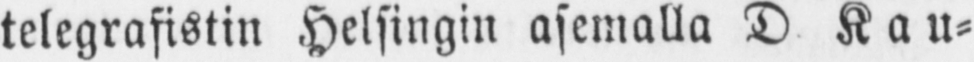telegrafistin Helsingin asemalla D Kau-
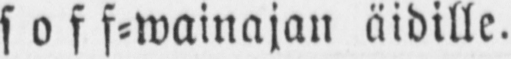soff-wainajan äidille.
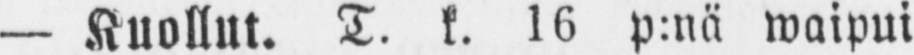— Kuollut. T. k. 16 p:nä waipui
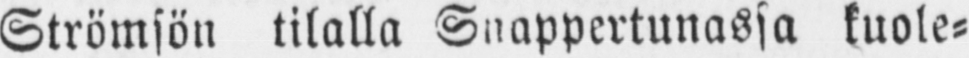Strömsön tilalla Snappertunassa kuole-
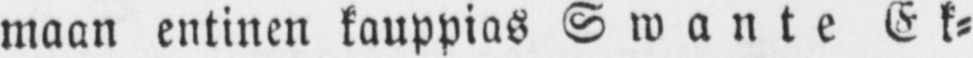maan entinen kauppias Swante Ek-
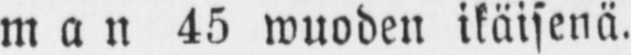man 45 wuoden ikäisenä.
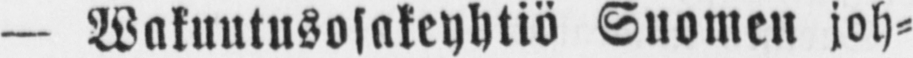— Wakuutusosakeyhtiö Suomen joh-
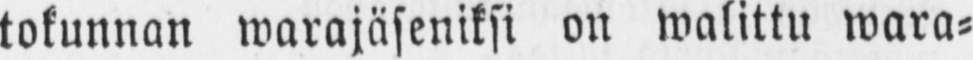tokunnan warajäseniksi on walittu wara-
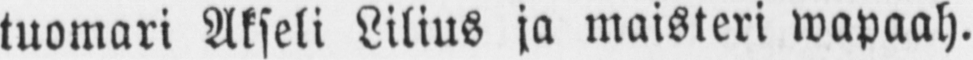tuomari Akseli Lilius ja maisteri wapaah.
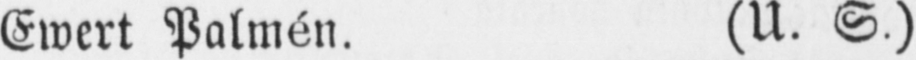Ewert Palmén. (U.S.)
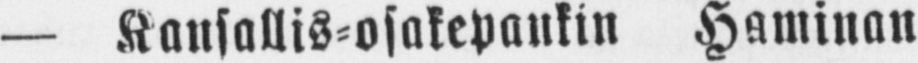— Kansallis-osakepankin Haminan
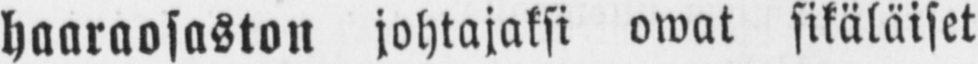haaraosaston johtajaksi owat sikäläiset
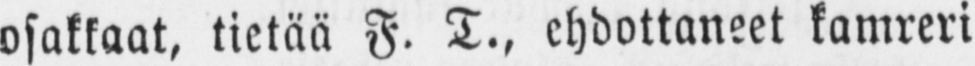osakkaat, tietää F. T., ehdottaneet kamreri
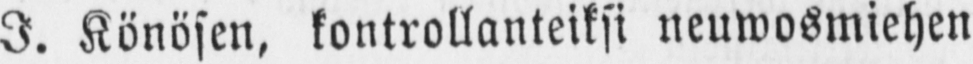I. Könösen, kontrollanteiksi neuwosmiehen
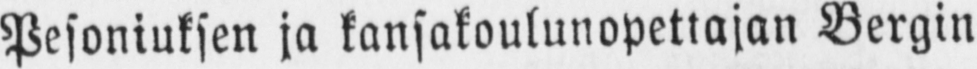Pesoniuksen ja kansakoulunopettajan Bergin
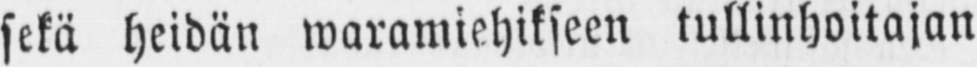sekä heidän waramiehikseen tullinhoitajan
